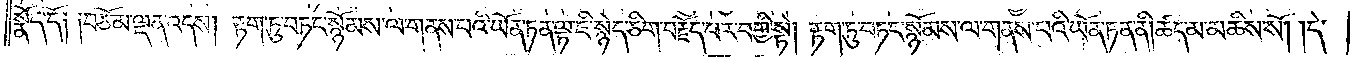སྣོད་དོ། །བཅོམ་ལྡན་འདས། རྟག་ཏུ་བཏང་སྙོམས་ལ་གནས་པའི་ཡོན་ཏན་ལྟ་ཇི་སྙེད་ཅིག་བརྗོད་པར་བགྱི་སྟེ། རྟག་ཏུ་བཏང་སྙོམས་ལ་གནས་པའི་ཡོན་ཏན་ནི། ཚད་མ་མཆིས་སོ། །དེ་
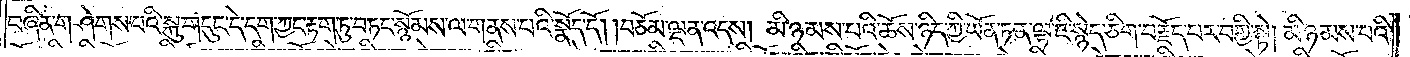བཞིན་གཤེགས་པའི་སྐུ་གདུང་དེ་དག་ཀྱང་རྟག་ཏུ་བཏང་སྙོམས་ལ་གནས་པའི་སྣོད་དོ། །བཅོམ་ལྡན་འདས། མི་ཉམས་པའི་ཆོས་ཉིད་ཀྱི་ཡོན་ཏན་ལྟ་ཇི་སྙེད་ཅིག་བརྗོད་པར་བགྱི་སྟེ། མི་ཉམས་པའི་
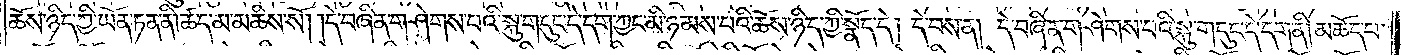ཆོས་ཉིད་ཀྱི་ཡོན་ཏན་ནི་ཚད་མ་མཆིས་སོ། །དེ་བཞིན་གཤེགས་པའི་སྐུ་གདུང་དེ་དག་ཀྱང་མི་ཉམས་པའི་ཆོས་ཉིད་ཀྱི་སྣོད་དེ། །དེ་བས་ན། དེ་བཞིན་གཤེགས་པའི་སྐུ་གདུང་དེ་དག་ནི། མཆོད་པ་
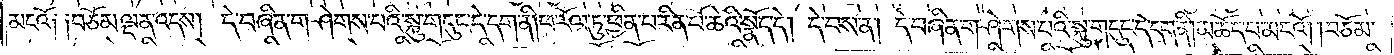མངའོ། །བཅོམ་ལྡན་འདས། དེ་བཞིན་གཤེགས་པའི་སྐུ་གདུང་དེ་དག་ནི། ཕ་རོལ་ཏུ་ཕྱིན་པ་རིན་པོ་ཆེའི་སྣོད་དེ། དེ་བས་ན། དེ་བཞིན་གཤེགས་པའི་སྐུ་གདུང་དེ་དག་ནི། མཆོད་པ་མངའོ། །བཅོམ་
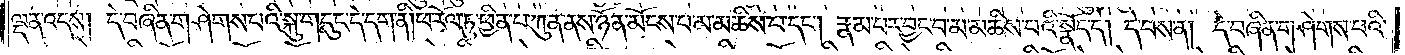ལྡན་འདས། དེ་བཞིན་གཤེགས་པའི་སྐུ་གདུང་དེ་དག་ནི། ཕ་རོལ་ཏུ་ཕྱིན་པ་ཀུན་ནས་ཉོན་མོངས་པ་མ་མཆིས་པ་དང༌། རྣམ་པར་བྱང་བ་མ་མཆིས་པའི་སྣོད་དེ། དེ་བས་ན། དེ་བཞིན་གཤེགས་པའི་
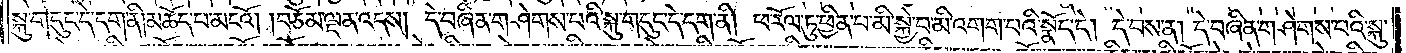སྐུ་གདུང་དེ་དག་ན་མཆོད་པ་མངའོ། བཅོམ་ལྡན་འདས། དེ་བཞིན་གཤེགས་པའི་སྐུ་གདུང་དེ་དག་ནི། ཕ་རོལ་ཏུ་ཕྱིན་པ་མི་སྐྱེ་བ་མི་འགག་པའི་སྣོད་དེ། དེ་བས་ན། དེ་བཞིན་གཤེགས་པའི་སྐུ་
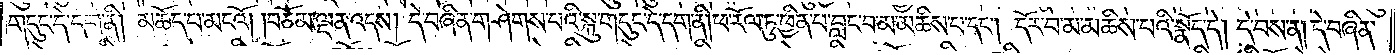གདུང་དེ་དག་ནི། མཆོད་པ་མངའོ། །བཅོམ་ལྡན་འདས། དེ་བཞིན་གཤེགས་པའི་སྐུ་གདུང་དེ་དག་ནི།ཕ་རོལ་ཏུ་ཕྱིན་པ་བླང་བ་མ་མཆིས་པ་དང༌། དོར་བ་མ་མཆིས་པའི་སྣོད་དེ། དེ་བས་ན། དེ་བཞིན་
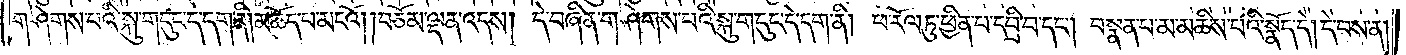གཤེགས་པའི་སྐུ་གདུང་དེ་དག་ནི། མཆོད་པ་མངའོ། །བཅོམ་ལྡན་འདས། དེ་བཞིན་གཤེགས་པའི་སྐུ་གདུང་དེ་དག་ནི། ཕ་རོལ་ཏུ་ཕྱིན་པ་དབྲི་བ་དང༌། བསྣན་པ་མ་མཆིས་པའི་སྣོད་དེ། དེ་བས་ན།
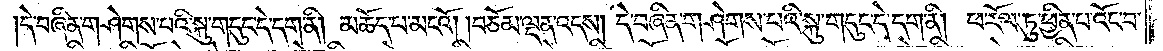དེ་བཞིན་གཤེགས་པའི་སྐུ་གདུང་དེ་དག་ནི། མཆོད་པ་མངའོ། །བཅོམ་ལྡན་འདས། དེ་བཞིན་གཤེགས་པའི་སྐུ་གདུང་དེ་དག་ནི། ཕ་རོལ་ཏུ་ཕྱིན་པ་འོང་བ་
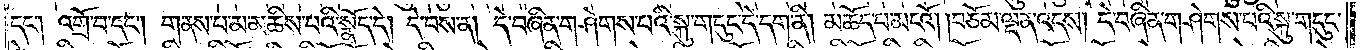དང༌། འགྲོ་བ་དང༌། གནས་པ་མ་མཆིས་པའི་སྣོད་དེ། དེ་བས་ན། དེ་བཞིན་གཤེགས་པའི་སྐུ་གདུང་དེ་དག་ནི། མཆོད་པ་མངའོ། །བཅོམ་ལྡན་འདས། དེ་བཞིན་གཤེགས་པའི་སྐུ་གདུང་
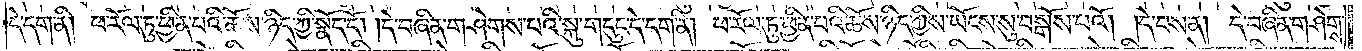དེ་དག་ནི། ཕ་རོལ་ཏུ་ཕྱིན་པའི་ཆོས་ཉིད་ཀྱི་སྣོད་དོ། །དེ་བཞིན་གཤེགས་པའི་སྐུ་གདུང་དེ་དག་ནི། ཕ་རོལ་ཏུ་ཕྱིན་པའི་ཆོས་ཉིད་ཀྱིས་ཡོངས་སུ་བསྒོས་པའོ། །དེ་བས་ན། དེ་བཞིན་གཤེགས་
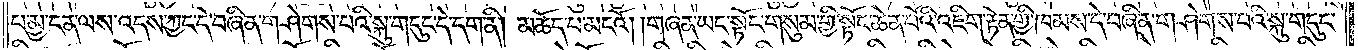པ་མྱ་ངན་ལས་འདས་ཀྱང་དེ་བཞིན་གཤེགས་པའི་སྐུ་གདུང་དེ་དག་ནི། མཆོད་པ་མངའོ། །གཞན་ཡང་སྟོང་གསུམ་གྱི་སྟོང་ཚན་པོའི་འཇིག་རྟེན་གྱི་ཁམས་དེ་བཞིན་གཤེགས་པའི་སྐུ་གདུང་
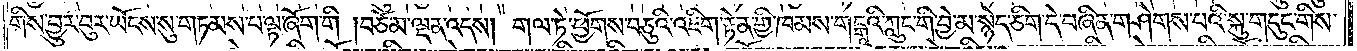གིས་བྱུར་བུར་ཡོངས་སུ་གཏམས་པ་ལྟ་ཞིག་གི །བཅོམ་ལྡན་འདས། གལ་ཏེ་ཕྱོགས་བཅུའི་འཇིག་རྟེན་གྱི་ཁམས་གངྒཱའི་ཀླུང་གི་བྱེ་མ་སྙེད་ཅིག་དེ་བཞིན་གཤེགས་པའི་སྐུ་གདུང་གིས་
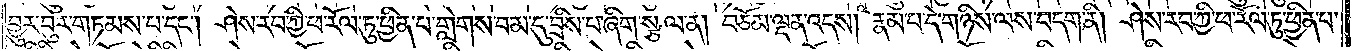བྱུར་བུར་གཏམས་པ་དང༌། ཤེས་རབ་ཀྱི་ཕ་རོལ་ཏུ་ཕྱིན་པ་གླེགས་བམ་དུ་བྲིས་པ་ཞིག་སྩལ་ན། བཅོམ་ལྡན་འདས། རྣམ་པ་དེ་གཉིས་ལས་བདག་ནི། ཤེས་རབ་ཀྱི་ཕ་རོལ་ཏུ་ཕྱིན་པ་
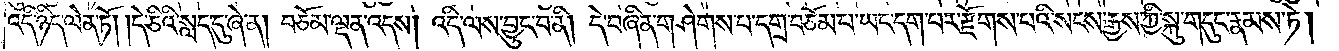འདི་ཉིད་ལེན་ཏོ། །དེ་ཅིའི་སླད་དུ་ཞེ་ན། བཅོམ་ལྡན་འདས། འདི་ལས་བྱུང་བ་ནི། དེ་བཞིན་གཤེགས་པ་དགྲ་བཅོམ་པ་ཡང་དག་པར་རྫོགས་པའི་སངས་རྒྱས་ཀྱི་སྐུ་གདུང་རྣམས་ཏེ།
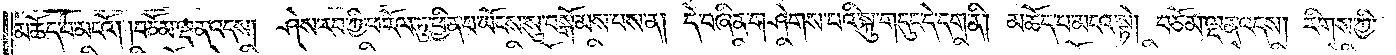མཆོད་པ་མངའོ། །བཅོམ་ལྡན་འདས། ཤེས་རབ་ཀྱི་ཕ་རོལ་ཏུ་ཕྱིན་པ་ཡོངས་སུ་བསྒོམས་པས་ན། དེ་བཞིན་གཤེགས་པའི་སྐུ་གདུང་དེ་དག་ནི། མཆོད་པ་མངའ་སྟེ། བཅོམ་ལྡན་འདས། རིགས་ཀྱི་
